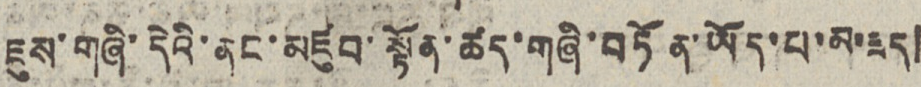ཇུས་གཞི་དེའི་ནང་མཛུབ་སྟོན་ཚད་གཞི་བཏོན་ཡོད་པ་མ་ཟད།
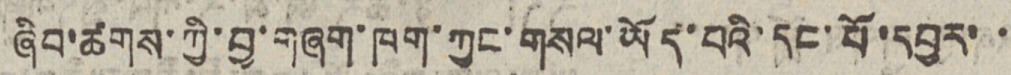ཞིབ་ཚགས་ཀྱི་བྱ་གཞག་ཁག་ཀྱང་གསལ་ཡོད་པའི་དང་པོ་དབྱར་་
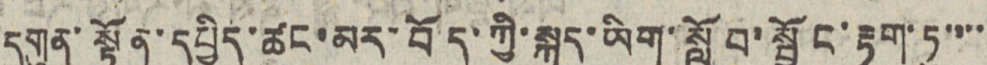དགུན་སྟོན་དཔྱིད་ཚང་མར་བོད་ཀྱི་སྐད་ཡིག་སློབ་སྦྱོང་རྟག་ཏུ་་་་་
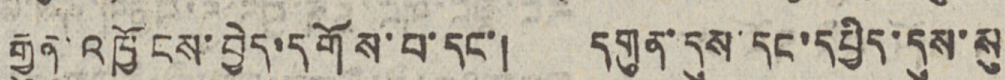རྒྱུན་འཁྱོངས་བྱེད་དགོས་པ་དང་། དགུན་དུས་དང་དཔྱིད་དུས་སུ
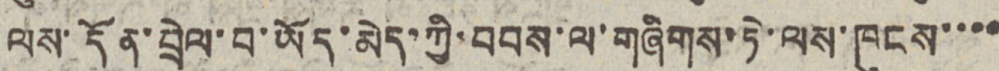ལས་དོན་བྲེལ་བ་ཡོད་མེད་ཀྱི་བབས་ལ་གཞིགས་ཏེ་ལས་ཁུངས་་་་
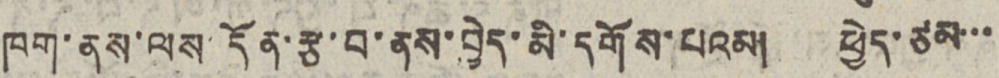ཁག་ནས་ལས་དོན་རྩ་བ་ནས་བྱེད་མི་དགོས་པའམ། ཕྱེད་ཙམ་་་
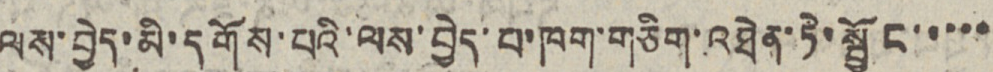ལས་བྱེད་མི་དགོས་པའི་ལས་བྱེད་པ་ཁག་གཅིག་འཐེན་ཏེ་སྦྱོང་་་་་
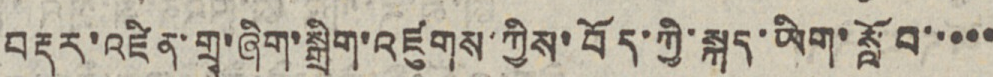བརྡར་འཛིན་གྲྭ་ཞིག་སྒྲིག་འཛུགས་ཀྱིས་བོད་ཀྱི་སྐད་ཡིག་སློབ་་་་་
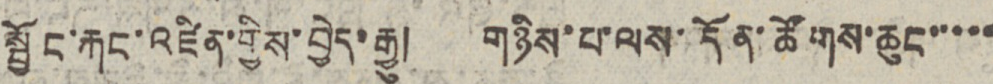སྦྱོང་རྐང་འཛིན་གྱིས་བྱེད་རྒྱུ། གཉིས་པ་ལས་དོན་ཚོགས་ཆུང་་་་་
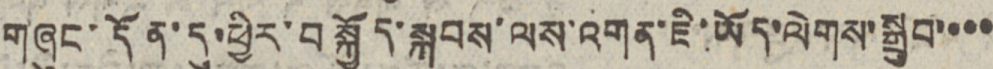གཞུང་དོན་དུ་ཕྱིར་བསྐྱོད་སྐབས་ལས་འགན་ཇི་ཡོད་ལེགས་སྒྲུབ་་་་
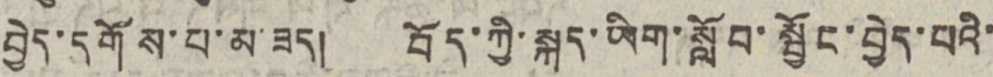བྱེད་དགོས་པ་མ་ཟད། བོད་ཀྱི་སྐད་ཡིག་སློབ་སྦྱོང་བྱེད་པའི་
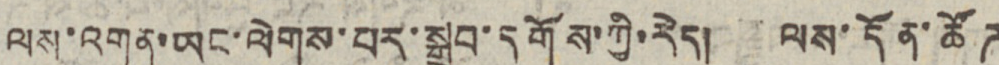ལས་འགན་ཡང་ལེགས་པར་སྒྲུབ་དགོས་ཀྱི་རེད། ལས་དོན་ཚོཊ
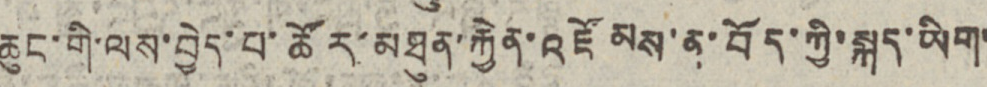ཆུང་གི་ལས་བྱེད་པ་ཚོར་མཐུན་རྐྱེན་འཛོམས་ན་བོད་ཀྱི་སྐད་ཡིག་
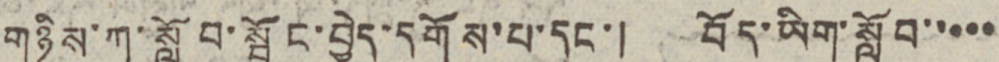གཉིས་ཀ་སློབ་སྦྱོང་བྱེད་དགོས་པ་དང་། བོད་ཡིག་སློབ་་་་་
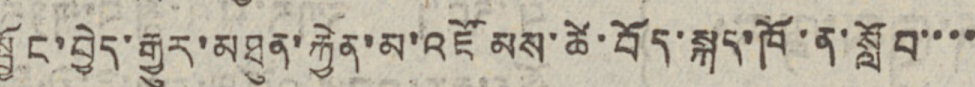སྦྱོང་བྱེད་རྒྱུར་མཐུན་རྐྱེན་མ་འཛོམས་ཚེ་བོད་སྐད་ཁོ་ན་སློབ་་་་
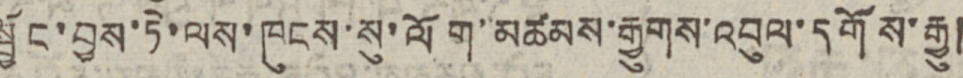སྦྱོང་བྱས་ཏེ་ལས་ཁུངས་སུ་ལོག་མཚམས་རྒྱུགས་འབུལ་དགོས་རྒྱུ།
